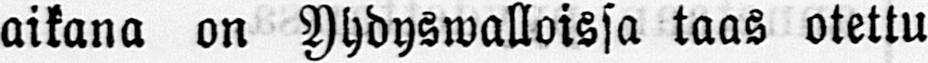aikana on Yhdyswalloissa taas otettu
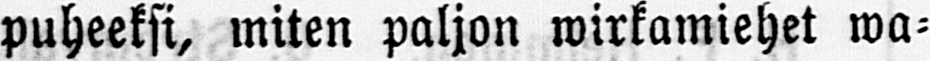puheeksi, miten paljon wirkamiehet wa-
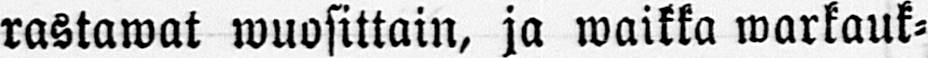rastawat wuosittain, ja waikka warkauk-
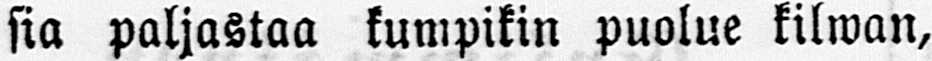sia paljastaa kumpikin puolue kilwan,
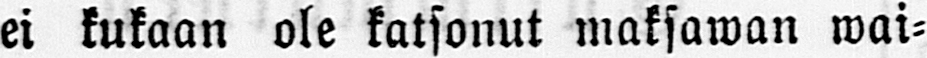ei kukaan ole katsonut maksawan wai-
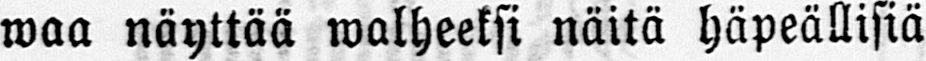waa näyttää mwlheeksi näitä häpeällisiä
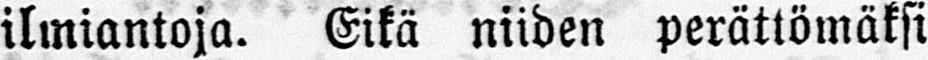ilmiantoja. Eikä niiden perättömäksi
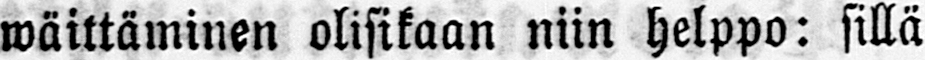wäittäminen olisikaan niin helppo: sillä
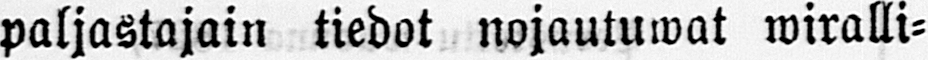paljastajain tiedot nojautuwat wiralli-
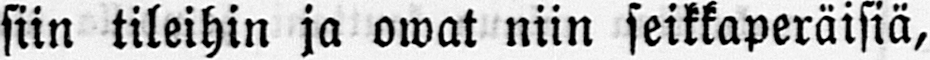siin tileihin ja owat niin seikkaperäisiä,
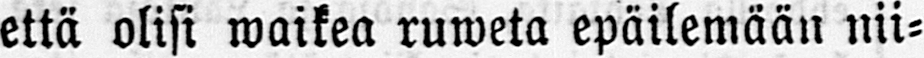että olisi waikea ruweta epäilemään nii-
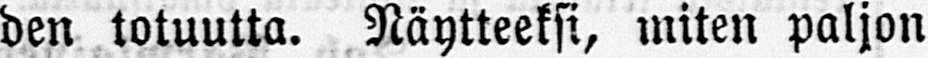den totuutta. Näytteeksi, miten paljon
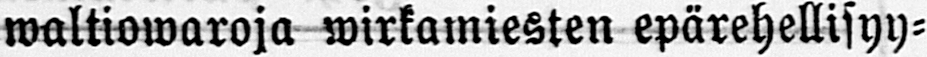waltiowaroja wirkamiesten epärehellisyy-
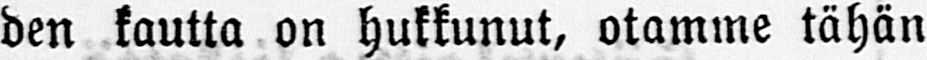den kautta on hukkunut, otamme tähän
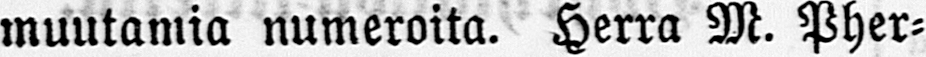muutamia numeroita. Herra M. Pher-
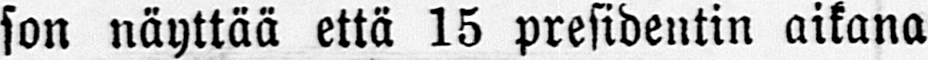son näyttää että 15 presidentin aikana
